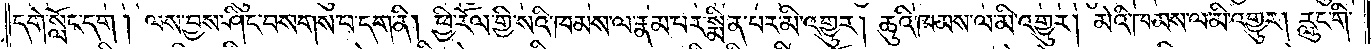དགེ་སློང་དག །ལས་བྱས་ཤིང་བསགས་པ་དག་ནི། ཕྱི་རོལ་གྱི་སའི་ཁམས་ལ་རྣམ་པར་སྨིན་པར་མི་འགྱུར། ཆུའི་ཁམས་ལ་མི་འགྱུར། མེའི་ཁམས་ལ་མི་འགྱུར། རླུང་གི་
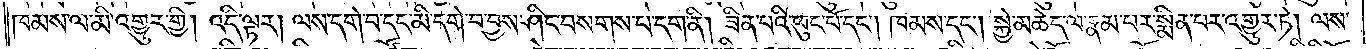ཁམས་ལ་མི་འགྱུར་གྱི། འདི་ལྟར། ལས་དག་བ་དང་མི་དགེ་བ་བྱས་ཤིང་བསགས་པ་དག་ནི། ཟིན་པའི་ཕུང་པོ་དང༌། ཁམས་དང༌། སྐྱེ་མཆེད་ལ་རྣམ་པར་སྨིན་པར་འགྱུར་ཏེ། ལས་
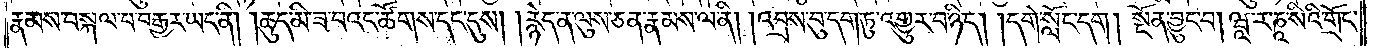རྣམས་བསྐལ་པ་བརྒྱར་ཡང་ནི། །ཆུད་མི་ཟ་བའང་ཚོགས་དང་དུས། །རྙེད་ན་ལུས་ཅན་རྣམས་ལ་ནི། །འབྲས་བུ་དག་ཏུ་འགྱུར་བ་ཉིད། །དགེ་སློང་དག །སྔོན་བྱུང་བ། ཝཱ་ར་ཎཱ་སིའི་གྲོང་
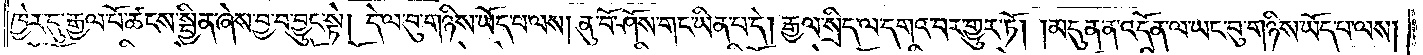ཁྱེར་དུ་རྒྱལ་པོ་ཚངས་སྦྱིན་ཞེས་བྱ་བ་བྱུང་སྟེ། དེ་ལ་བུ་གཉིས་ཡོད་པ་ལས། ནུ་བོ་ཤོས་གང་ཡིན་པ་དེ། རྒྱལ་སྲིད་ལ་དགའ་བར་གྱུར་ཏོ། །མདུན་ན་འདོན་ལ་ཡང་བུ་གཉིས་ཡོད་པ་ལས།
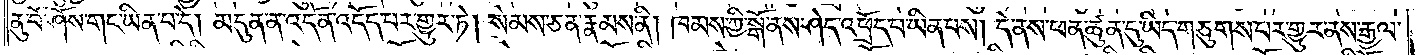ནུ་བོ་ཤོས་གང་ཡིན་པ་དེ། མདུན་ན་འདོན་འདོད་པར་གྱུར་ཏེ། སེམས་ཅན་རྣམས་ནི། ཁམས་ཀྱི་སྒོ་ནས་ཤེད་འཕྲོད་པ་ཡིན་པས། དེ་ནས་ཕན་ཚུན་དུ་ཡིད་གཅུགས་པར་གྱུར་ནས་རྒྱལ་
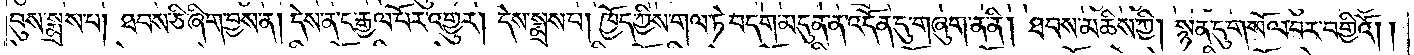བུས་སྨྲས་པ། ཐབས་ཅི་ཞིག་བྱས་ན། དེས་ན་ང་རྒྱལ་པོར་འགྱུར། དེས་སྨྲས་པ། ཁྱོད་ཀྱིས་གལ་ཏེ་བདག་མདུན་ན་འདོན་དུ་གཞུག་ན་ནི། ཐབས་མཆིས་ཀྱི། སྙན་དུ་གསོལ་བར་བགྱིའོ། །
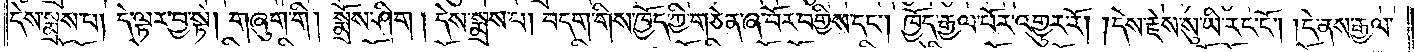དེས་སྨྲས་པ། དེ་ལྟར་བྱ་སྟེ། གཞུག་གི །སྨྲོས་ཤིག །དེས་སྨྲས་པ། བདག་གིས་ཁྱོད་ཀྱི་གཅེན་ཞ་བོར་བགྱིས་དང༌། ཁྱོད་རྒྱལ་པོར་འགྱུར་རོ། །དེས་རྗེས་སུ་ཡི་རང་ངོ༌། །དེ་ནས་རྒྱལ་
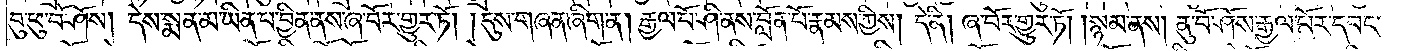བུ་ཕུ་བོ་ཤོས། དེས་སྨན་མ་ཡིན་པ་བྱིན་ནས་ཞ་བོར་གྱུར་ཏོ། །དུས་གཞན་ཞིག་ན། རྒྱལ་པོ་ཤི་ནས་བློན་པོ་རྣམས་ཀྱིས། དེ་ནི། ཞ་བོར་གྱུར་ཏོ། །སྙམ་ནས། ནུ་བོ་ཤོས་རྒྱལ་པོར་དབང་
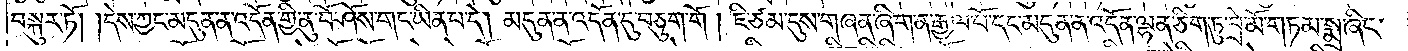བསྐུར་ཏོ། །དེས་ཀྱང་མདུན་ན་འདོན་གྱི་ནུ་བོ་ཤོས་གང་ཡིན་པ་དེ། མདུན་ན་འདོན་དུ་བཅུག་གོ །ཇི་ཙམ་དུས་གཞན་ཞིག་ན་རྒྱལ་པོ་དང་མདུན་ན་འདོན་ལྷན་ཅིག་ཏུ་བྲེ་མོ་གཏམ་སྨྲ་ཞིང་
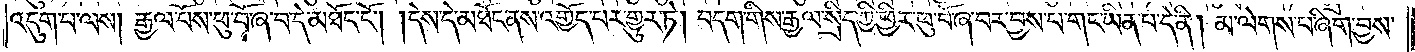འདུག་པ་ལས། རྒྱལ་པོས་ཕུ་བོ་ཞ་བ་དེ་མཐོང་ངོ༌། །དེས་དེ་མཐོང་ནས་འགྱོད་པར་གྱུར་ཏེ། བདག་གིས་རྒྱལ་སྲིད་ཀྱི་ཕྱིར་ཕུ་བོ་ཞ་བར་བྱས་པ་གང་ཡིན་པ་དེ་ནི། མ་ལེགས་པ་ཞིག་བྱས་
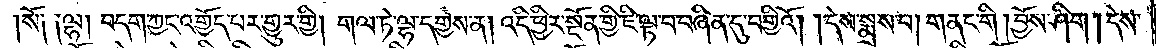སོ༑ ༑ལྷ། བདག་ཀྱང་འགྱོད་པར་གྱུར་གྱི། གལ་ཏེ་ལྷ་དགྱེས་ན། འདི་ཕྱིར་སྔོན་གྱི་ཇི་ལྟ་བ་བཞིན་དུ་བགྱིའོ། །དེས་སྨྲས་པ། གནང་གི །བྱོས་ཤིག །དེས་
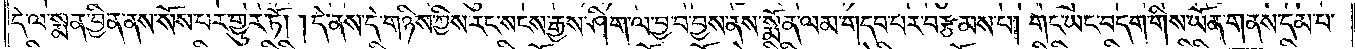དེ་ལ་སྨན་བྱིན་ནས་སོས་པར་གྱུར་ཏོ། །དེ་ནས་དེ་གཉིས་ཀྱིས་རང་སངས་རྒྱས་ཤིག་ལ་བྱར་བྱས་ནས་སྨོན་ལམ་གདབ་པར་བརྩམས་པ། གང་ཡང་བདག་གིས་ཡོན་གནས་དམ་པ་
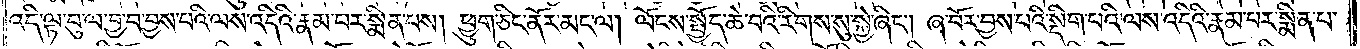འདི་ལྟ་བུ་ལ་བྱ་བ་བྱས་པའི་ལས་འདིའི་རྣམ་པར་སྨིན་པས། ཕྱུག་ཅིང་ནོར་མང་ལ། ལོངས་སྤྱོད་ཆེ་བའི་རིགས་སུ་སྐྱེ་ཞིང༌། ཞ་བོར་བྱས་པའི་སྡིག་པའི་ལས་འདིའི་རྣམ་པར་སྨིན་པ་
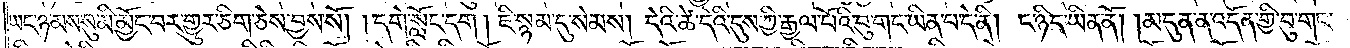ཡང་ཉམས་སུ་མི་མྱོང་བར་གྱུར་ཅིག་ཅེས་བྱས་སོ། །དགེ་སློང་དག །ཇི་སྙམ་དུ་སེམས། དེའི་ཚེ་དེའི་དུས་ཀྱི་རྒྱལ་པོའི་བུ་གང་ཡིན་པ་དེ་ནི། ང་ཉིད་ཡིན་ནོ། །མདུན་ན་འདོན་གྱི་བུ་གང་
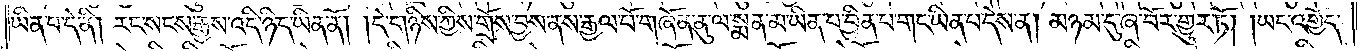ཡིན་པ་དེ་ནི། རང་སངས་རྒྱས་འདི་ཉིད་ཡིན་ནོ། །དེ་གཉིས་ཀྱིས་གྲོས་བྱས་ནས་རྒྱལ་པོ་གཞོན་ནུ་ལ་སྨན་མ་ཡིན་པ་བྱིན་པ་གང་ཡིན་པ་དེས་ན། མཉམ་དུ་ཞ་བོར་གྱུར་ཏོ། །ཡང་འགྱོད་
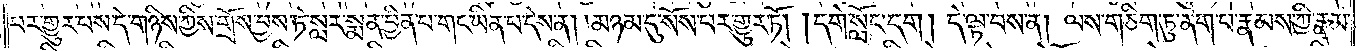པར་གྱུར་པས་དེ་གཉིས་ཀྱིས་གྲོས་བྱས་ཏེ་སླར་སྨན་བྱིན་པ་གང་ཡིན་པ་དེས་ན། །མཉམ་དུ་སོས་པར་གྱུར་ཏོ། །དགེ་སློང་དག །དེ་ལྟ་བས་ན། ལས་གཅིག་ཏུ་ནག་བ་རྣམས་ཀྱི་རྣམ་
